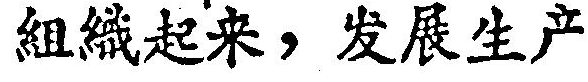組織起来，发展生产
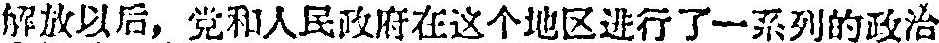解放以后，党和人民政府在这个地区进行了一系列的政治
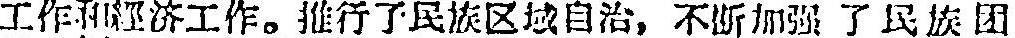工作和經济工作。推行了民族区域自治，不断加強了民族团
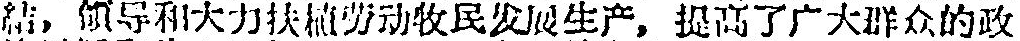結，領导和大力扶植劳动牧民发展生产，提高了广大群众的政
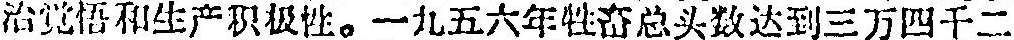治覚悟和生产积极性。一九五六年牲畜总头数达到三万四千二
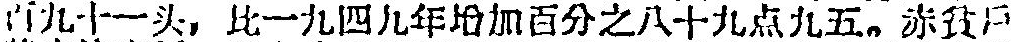百九十一头，比一九四九年增加百分之八十九点九五。赤貧戶
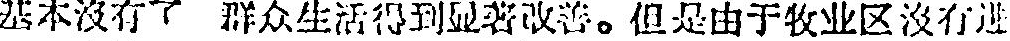基本沒有了 群众生活得到显著改善。但是由于牧业区沒行进
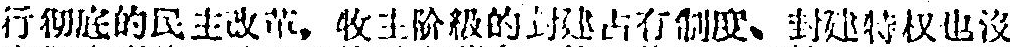行彻底的民主改革，牧主阶級的封建占有制度、封建特权也沒
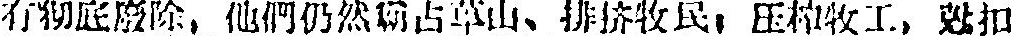有彻底廢除，他們仍然霸占草山、排挤牧民；压榨牧工，剋扣
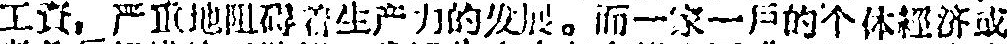工資，严重地阻碍着生产力的发展。而一家一戶的个体經济或
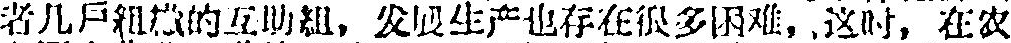者几戶組織的互助組，发展生产也存在很多困难，这时，在农
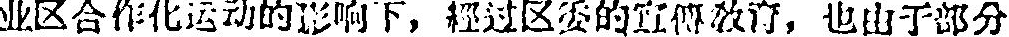业区合作化运动的影响下，經过区委的宣傳教育，也由于部分
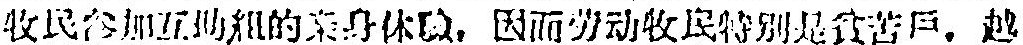牧民参加互助組的美好体驗，因而劳动牧民特別是貧苦戶，越
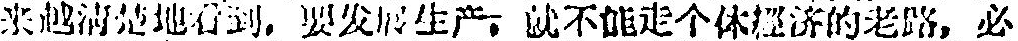来越清楚地看到，要发展生产，就不能走个体經济的老路，必
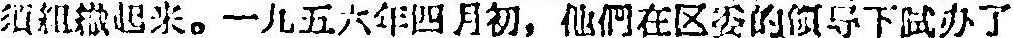須組織起来。一九五六年四月初，他們在区委的領导下試办了
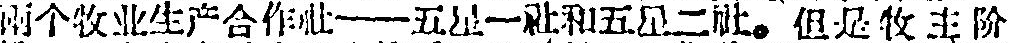兩个牧业生产合作社——五星一社和五星二社。但是牧主阶
